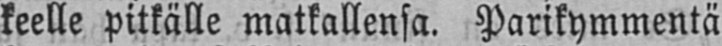keelle pitkälle matkallensa. Parikymmentä
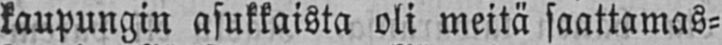kaupungin asukkaista oli meitä saattamas-
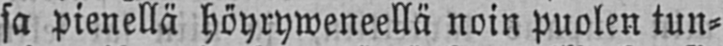sa pienellä höyryweneellä noin puolen tun-
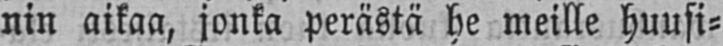nin aikaa, jonka perästä he meille huusi-
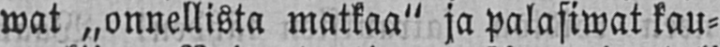wat „onnellista matkaa" ja palasiwat kau-
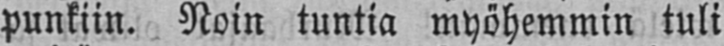punkiin. Noin tuntia myöhemmin tuli
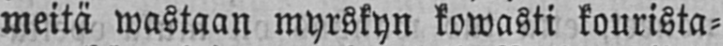meitä wastaan myrskyn kowasti kourista-
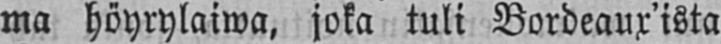ma höyrylaiwa, joka tuli Bordeaux'ista
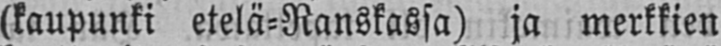(kaupunki etelä-Ranskassa) ja merkkien
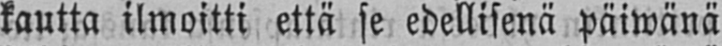kautta ilmoitti että se edellisenä päiwänä
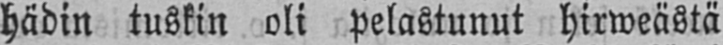hädin tuskin oli pelastunut hirweästä
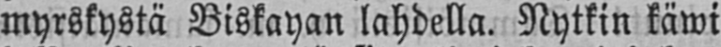myrskystä Biskayan lahdella. Nytkin käwi
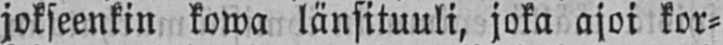jokseenkin kowa länsituuli, joka ajoi kor-
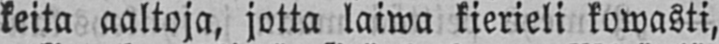keita aaltoja, jotta laiwa kierieli kowasti,
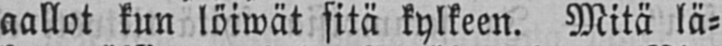aallot kun löiwät sitä kylkeen. Mitä lä-
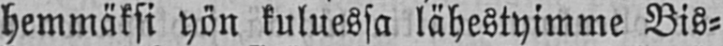hemmäksi yön kuluessa lähestyimme Bis-
